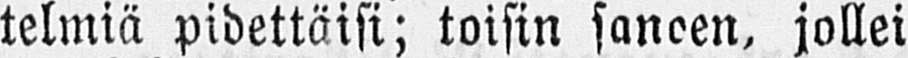telmiä pidettäisi; toisin sanoen, jollei
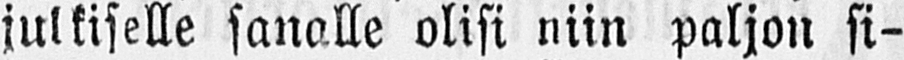julkiselle sanalle olisi niin paljon si-
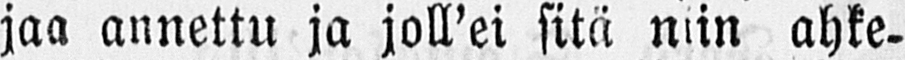jaa annettu ja joll'ei sitä niin ahke-
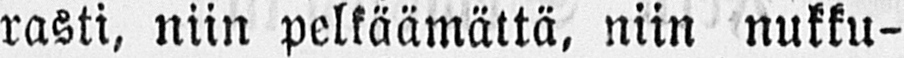rasti, niin pelkäämättä, niin nukku-
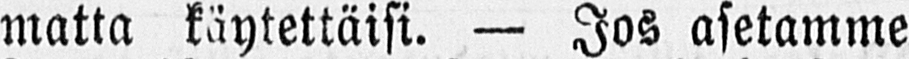matta käytettäisi. — Jos asetamme
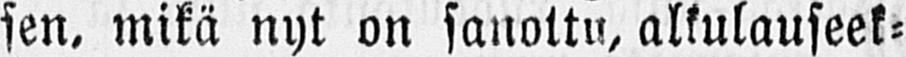sen, mikä nyt on sanottu, alkulauseek-
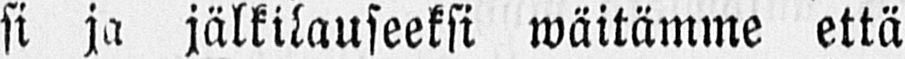si ja jälkilauseeksi wäitämme että
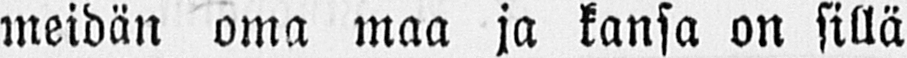meidän oma maa ja kansa on sillä
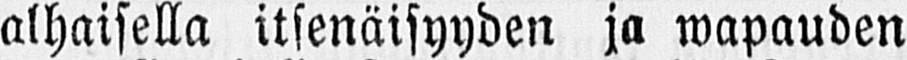alhaisella itsenäisyyden ja wapauden
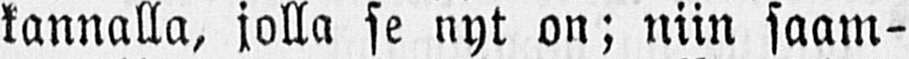kannalla, jolla se nyt on; niin saam-
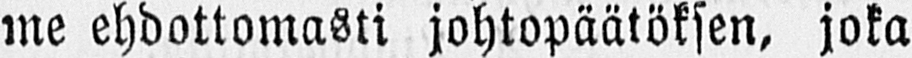me ehdottomasti johtopäätöksen, joka
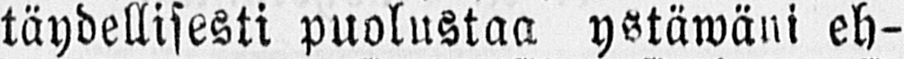täydellisesti puolustaa ystäwäni eh-
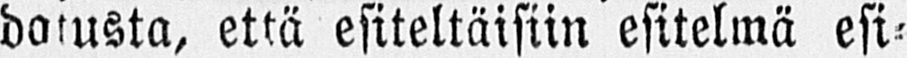dotusta, että esiteltäisiin esitelmä esi-
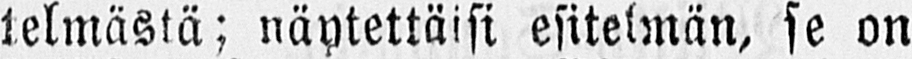telmästä; näytettäisi esitelmän, se on
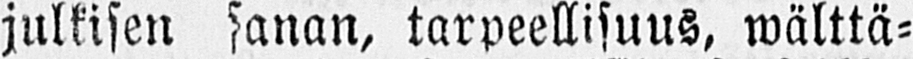julkisen sanan, tarpeellisuus, wälttä-
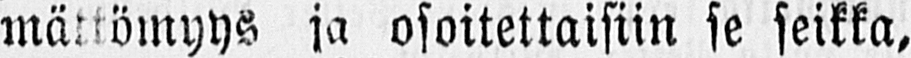mättömyys ja osoitettaisiin se seikka,
